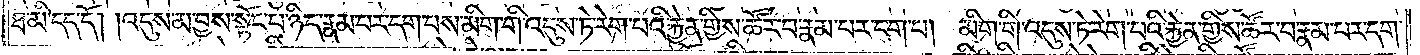ཐ་མི་དད་དོ། །འདུས་མ་བྱས་སྟོང་པ་ཉིད་རྣམ་པར་དག་པས་མིག་གི་འདུས་ཏེ་རེག་པའི་རྐྱེན་གྱིས་ཚོར་བ་རྣམ་པར་དག་པ། མིག་གི་འདུས་ཏེ་རེག་པའི་རྐྱེན་གྱིས་ཚོར་བ་རྣམ་པར་དག་
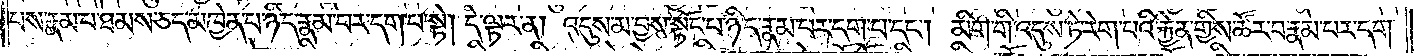པས་རྣམ་པ་ཐམས་ཅད་མཁྱེན་པ་ཉིད་རྣམ་པར་དག་པ་སྟེ། དེ་ལྟར་ན། འདུས་མ་བྱས་སྟོང་པ་ཉིད་རྣམ་པར་དག་པ་དང༌། མིག་གི་འདུས་ཏེ་རེག་པའི་རྐྱེན་གྱིས་ཚོར་བ་རྣམ་པར་དག་
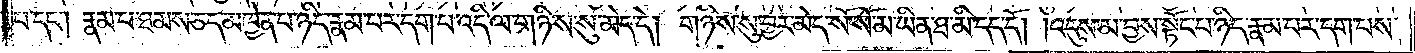པ་དང༌། རྣམ་པ་ཐམས་ཅད་མཁྱེན་པ་ཉིད་རྣམ་པར་དག་པ་འདི་ལ་གཉིས་སུ་མེད་དེ། གཉིས་སུ་བྱར་མེད་སོ་སོ་མ་ཡིན་ཐ་མི་དད་དོ། །འདུས་མ་བྱས་སྟོང་པ་ཉིད་རྣམ་པར་དག་པས་
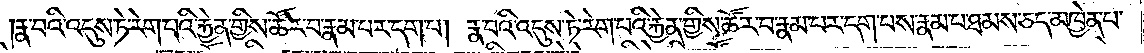རྣ་བའི་འདུས་ཏེ་རེག་པའི་རྐྱེན་གྱིས་ཚོར་བ་རྣམ་པར་དག་པ། རྣ་བའི་འདུས་ཏེ་རེག་པའི་རྐྱེན་གྱིས་ཚོར་བ་རྣམ་པར་དག་པས་རྣམ་པ་ཐམས་ཅད་མཁྱེན་པ་
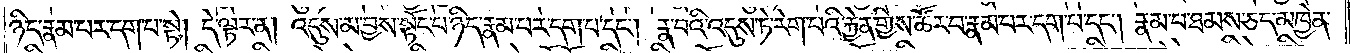ཉིད་རྣམ་པར་དག་པ་སྟེ། དེ་ལྟར་ན། འདུས་མ་བྱས་སྟོང་པ་ཉིད་རྣམ་པར་དག་པ་དང༌། རྣ་བའི་འདུས་ཏེ་རེག་པའི་རྐྱེན་གྱིས་ཚོར་བ་རྣམ་པར་དག་པ་དང༌། རྣམ་པ་ཐམས་ཅད་མཁྱེན་
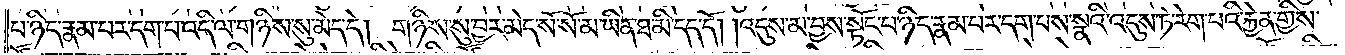པ་ཉིད་རྣམ་པར་དག་པ་འདི་ལ་གཉིས་སུ་མེད་དེ། གཉིས་སུ་བྱར་མེད་སོ་སོ་མ་ཡིན་ཐ་མི་དད་དོ། །འདུས་མ་བྱས་སྟོང་པ་ཉིད་རྣམ་པར་དག་པས་སྣའི་འདུས་ཏེ་རེག་པའི་རྐྱེན་གྱིས་
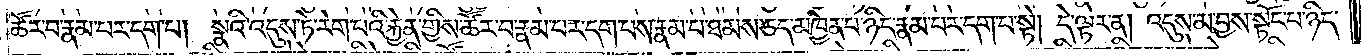ཚོར་བ་རྣམ་པར་དག་པ། སྣའི་འདུས་ཏེ་རེག་པའི་རྐྱེན་གྱིས་ཚོར་བ་རྣམ་པར་དག་པས་རྣམ་པ་ཐམས་ཅད་མཁྱེན་པ་ཉིད་རྣམ་པར་དག་པ་སྟེ། དེ་ལྟར་ན། འདུས་མ་བྱས་སྟོང་པ་ཉིད་
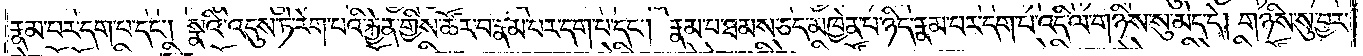རྣམ་པར་དག་པ་དང༌། སྣའི་འདུས་ཏེ་རེག་པའི་རྐྱེན་གྱིས་ཚོར་བ་རྣམ་པར་དག་པ་དང༌། རྣམ་པ་ཐམས་ཅད་མཁྱེན་པ་ཉིད་རྣམ་པར་དག་པ་འདི་ལ་གཉིས་སུ་མེད་དེ། གཉིས་སུ་བྱར་
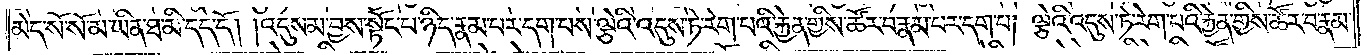མེད་སོ་སོ་མ་ཡིན་ཐ་མི་དད་དོ། །འདུས་མ་བྱས་སྟོང་པ་ཉིད་རྣམ་པར་དག་པས་ལྕེའི་འདུས་ཏེ་རེག་པའི་རྐྱེན་གྱིས་ཚོར་བ་རྣམ་པར་དག་པ། ལྕེའི་འདུས་ཏེ་རེག་པའི་རྐྱེན་གྱིས་ཚོར་བ་རྣམ་
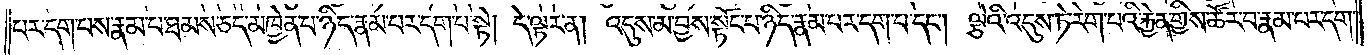པར་དག་པས་རྣམ་པ་ཐམས་ཅད་མཁྱེན་པ་ཉིད་རྣམ་པར་དག་པ་སྟེ། དེ་ལྟར་ན། འདུས་མ་བྱས་སྟོང་པ་ཉིད་རྣམ་པར་དག་པ་དང༌། ལྕེའི་འདུས་ཏེ་རེག་པའི་རྐྱེན་གྱིས་ཚོར་བ་རྣམ་པར་དག་
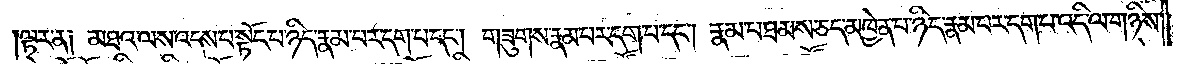ལྟར་ན༑ མཐའ་ལས་འདས་པ་སྟོང་པ་ཉིད་རྣམ་པར་དག་པ་དང༌། གཟུགས་རྣམ་པར་དག་པ་དང༌། རྣམ་པ་ཐམས་ཅད་མཁྱེན་པ་ཉིད་རྣམ་པར་དག་པ་འདི་ལ་གཉིས་
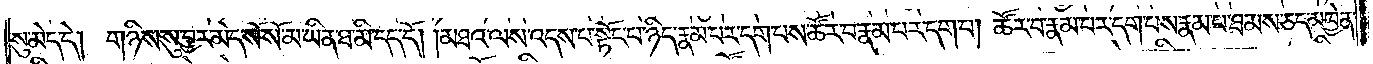སུ་མེད་དེ། གཉིས་སུ་བྱར་མེད་སོ་སོ་མ་ཡིན་ཐ་མི་དད་དོ། །མཐའ་ལས་འདས་པ་སྟོང་པ་ཉིད་རྣམ་པར་དག་པས་ཚོར་བ་རྣམ་པར་དག་པ། ཚོར་བ་རྣམ་པར་དག་པས་རྣམ་པ་ཐམས་ཅད་མཁྱེན་
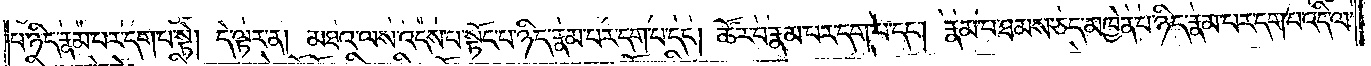པ་ཉིད་རྣམ་པར་དག་པ་སྟེ། དེ་ལྟར་ན། མཐའ་ལས་འདས་པ་སྟོང་པ་ཉིད་རྣམ་པར་དག་པ་དང༌། ཚོར་བ་རྣམ་པར་དག་པ་དང༌། རྣམ་པ་ཐམས་ཅད་མཁྱེན་པ་ཉིད་རྣམ་པར་དག་པ་འདི་ལ་
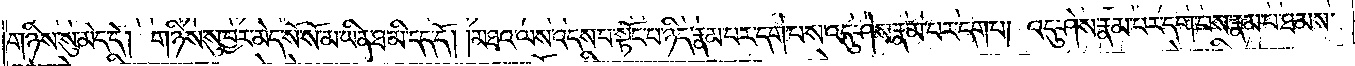གཉིས་སུ་མེད་དེ། གཉིས་སུ་བྱར་མེད་སོ་སོ་མ་ཡིན་ཐ་མི་དད་དོ། །མཐའ་ལས་འདས་པ་སྟོང་པ་ཉིད་རྣམ་པར་དག་པས་འདུ་ཤེས་རྣམ་པར་དག་པ། འདུ་ཤེས་རྣམ་པར་དག་པས་རྣམ་པ་ཐམས་
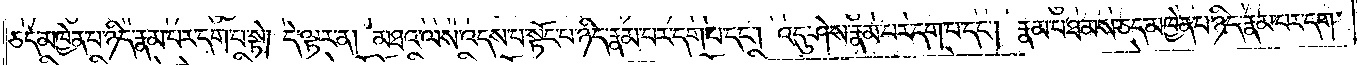ཅད་མཁྱེན་པ་ཉིད་རྣམ་པར་དག་པ་སྟེ། དེ་ལྟར་ན། མཐའ་ལས་འདས་པ་སྟོང་པ་ཉིད་རྣམ་པར་དག་པ་དང༌། འདུ་ཤེས་རྣམ་པར་དག་པ་དང༌། རྣམ་པ་ཐམས་ཅད་མཁྱེན་པ་ཉིད་རྣམ་པར་དག་
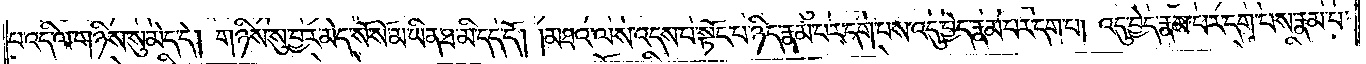པ་འདི་ལ་གཉིས་སུ་མེད་དེ། གཉིས་སུ་བྱར་མེད་སོ་སོ་མ་ཡིན་ཐ་མི་དད་དོ། །མཐའ་ལས་འདས་པ་སྟོང་པ་ཉིད་རྣམ་པར་དག་པས་འདུ་བྱེད་རྣམ་པར་དག་པ། འདུ་བྱེད་རྣམ་པར་དག་པས་རྣམ་པ་
